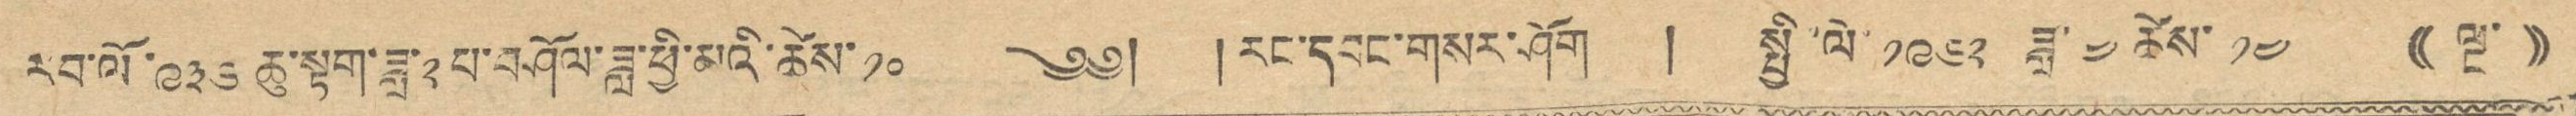རབ་ལོ་༩༣༦ ཆུ་སྟག་ཟླ་༢པ་བཤོལ་ཟླ་ཕྱི་མའི་ཚེས་ ༡༠ ༄༅། །རང་དབང་གསར་ཤོག ། སྤྱི་ལོ་ ༡༩༦༣ ཟླ་ ༤ ཚེས་ ༡༤ (( ལྔ་ ))
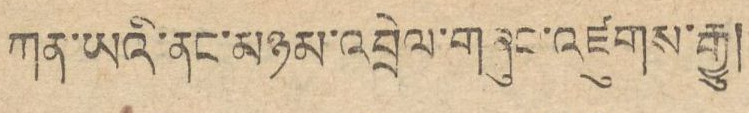ཀན་ཡའི་ནང་མཉམ་འབྲེལ་གཞུང་འཛུགས་རྒྱུ།
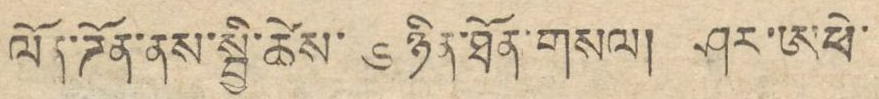ལོན་ཌོན་ནས་སྤྱི་ཚེས་ ༦ ཉིན་ཐོན་གསལ། ཤར་ཨཕེ་
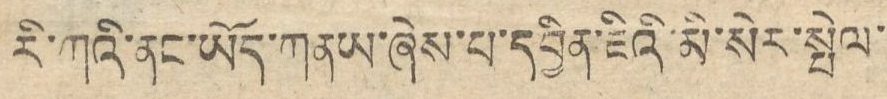རི་ཀའི་ནང་ཡོད་ཀནཡ་ཞེས་པ་དབྱིན་ཇིའི་མི་སེར་སྤེལ་
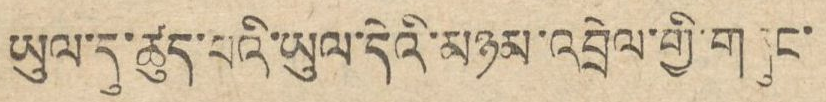ཡུལ་དུ་ཚུད་པའི་ཡུལ་དེའི་མཉམ་འབྲེལ་གྱི་གཞུང་
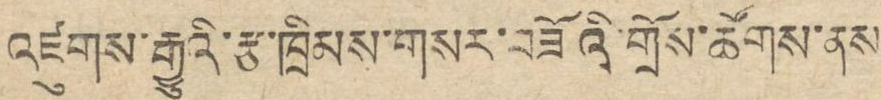འཛུགས་རྒྱུའི་རྩ་ཁྲིམས་གསར་བཟོའི་གྲོས་ཚོགས་ནས
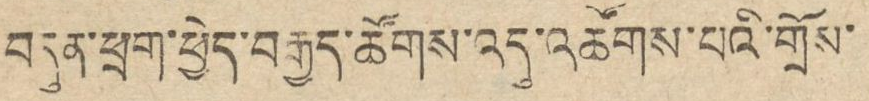བདུན་ཕྲག་ཕྱེད་བརྒྱུད་ཚོགས་འདུ་འཚོགས་པའི་གྲོས་
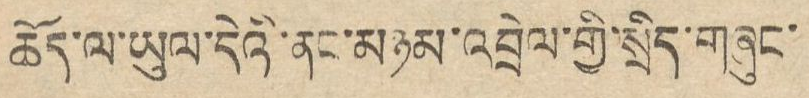ཆོད་ལ་ཡུལ་དེའི་ནང་མཉམ་འབྲེལ་གྱི་སྲིད་གཞུང་
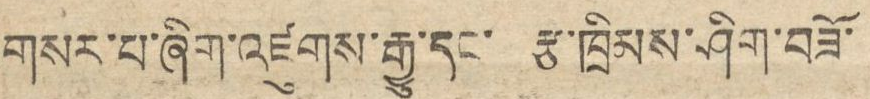གསར་པ་ཞིག་འཛུགས་རྒྱུ་དང་ རྩ་ཁྲིམས་ཤིག་བཟོ་
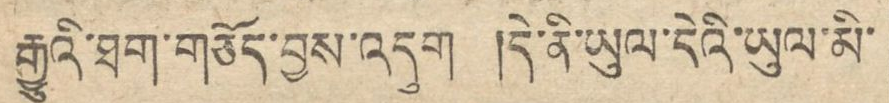རྒྱུའི་ཐག་གཅོད་བྱས་འདུག །དེ་ནི་ཡུལ་དེའི་ཡུལ་མི་
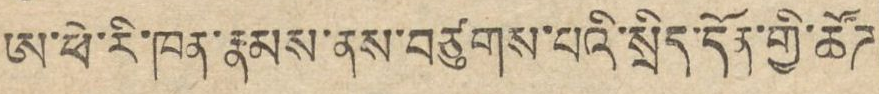ཨ་ཕེ་རི་ཁན་རྣམས་ནས་བཙུགས་པའི་སྲིད་དོན་གྱི་ཚོཌ་
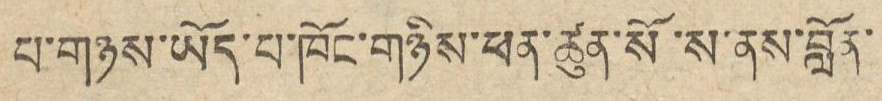པ་གཉས་ཡོད་པ་ཁོང་གཉིས་ཕན་ཚུན་སོ་ས་ནས་བློན་
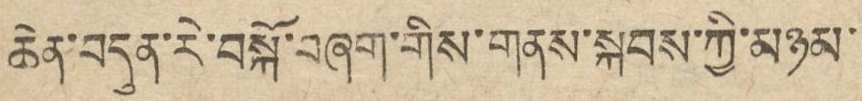ཆེན་བདུན་རེ་བསྐོ་བཞག་གིས་གནས་སྐབས་ཀྱི་མཉམ་
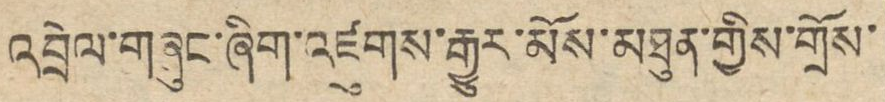འབྲེལ་གཞུང་ཞིག་འཛུགས་རྒྱུར་མོས་མཐུན་གྱིས་གྲོས་
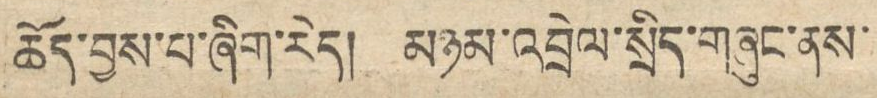ཆོད་བྱས་པ་ཞིག་རེད། མཉམ་འབྲེལ་སྲིད་གཞུང་ནས་
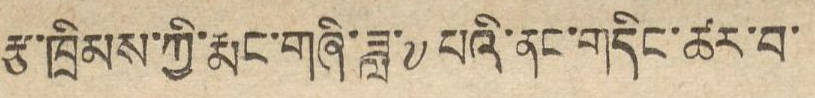རྩ་ཁྲིམས་ཀྱི་རྨང་གཞི་ཟླ་༧ པའི་ནང་གདིང་ཚར་བ་
